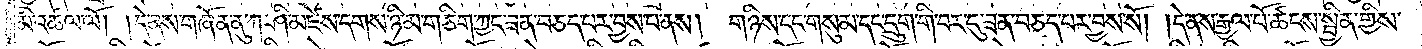མི་འཚལ་ལོ། །དེ་ནས་གཞོན་ནུ་ཀ་ཤི་མཛེས་དགས་ཉི་མ་གཅིག་ཀྱང་ཟན་བཅད་པར་བྱས་པ་ནས། གཉིས་དང་གསུམ་དང་དྲུག་གི་བར་དུ་ཟན་བཅད་པར་བྱས་སོ། །དེ་ནས་རྒྱལ་པོ་ཚངས་སྦྱིན་གྱིས་
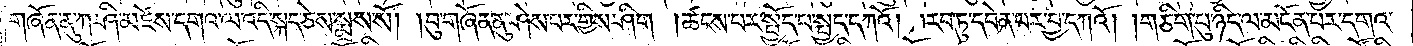གཞོན་ནུ་ཀ་ཤི་མཛེས་དགའ་ལ་འདི་སྐད་ཅེས་སྨྲས་སོ། །བུ་གཞོན་ནུ་ཤེས་པར་གྱིས་ཤིག །ཚངས་པར་སྤྱོད་པ་སྤྱད་དཀའོ། །རབ་ཏུ་དབེན་པར་བྱ་དཀའོ། །གཅིག་པུ་ཉིད་ལ་མངོན་པར་དགའ་
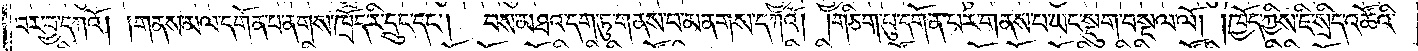བར་བྱ་དཀའོ། །གནས་མལ་དགོན་པ་ནགས་ཁྲོད་རི་དྲུང་དང༌། བས་མཐའ་དག་ཏུ་གནས་པ་མནགས་དཀའོ། །གཅིག་པུ་དགོན་པར་གནས་པ་ཡང་སྡུག་བསྔལ་ལོ། །ཁྱོད་ཀྱིས་ཇི་སྲིད་འཚོའི་
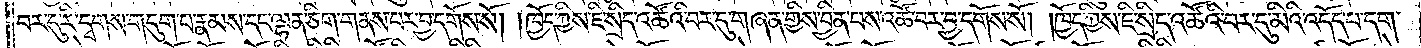བར་དུ་རི་དྭགས་གདུག་པ་རྣམས་དང་ལྷན་ཅིག་གནས་པར་བྱ་དགོས་སོ། །ཁྱོད་ཀྱིས་ཇི་སྲིད་འཚོའི་བར་དུ་གཞན་གྱིས་བྱིན་པས་འཚོ་བར་བྱ་དགོས་སོ། །ཁྱོད་ཀྱིས་ཇི་སྲིད་འཚོའི་བར་དུ་མིའི་འདོད་པ་དག་
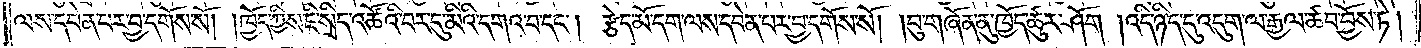ལས་དབེན་པར་བྱ་དགོས་སོ། །ཁྱོད་ཀྱིས་ཇི་སྲིད་འཚོའི་བར་དུ་མིའི་དགའ་བ་དང༌། རྩེད་མོ་དག་ལས་དབེན་པར་བྱ་དགོས་སོ། །བུ་གཞོན་ནུ་ཁྱོད་ཚུར་ཤོག །འདི་ཉིད་དུ་འདུག་ལ་རྒྱལ་ཚབ་བྱོས་ཏེ།
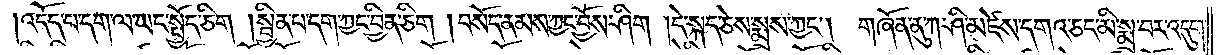འདོད་པ་དག་ལ་ཡང་སྤྱོད་ཅིག །སྦྱིན་པ་དག་ཀྱང་བྱིན་ཅིག །བསོད་ནམས་ཀྱང་བྱོས་ཤིག །དེ་སྐད་ཅེས་སྨྲས་ཀྱང༌། གཞོན་ནུ་ཀ་ཤི་མཛེས་དགའ་ཅང་མི་སྨྲ་བར་འདུག་
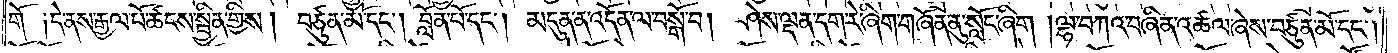གོ ༑དེ་ནས་རྒྱལ་པོ་ཚངས་སྦྱིན་གྱིས། བཙུན་མོ་དང༌། བློན་པོ་དང༌། མདུན་ན་འདོན་ལ་བསྒོ་བ། ཤེས་ལྡན་དག་རེ་ཞིག་གཞོན་ནུ་སློང་ཞིག །ལྷ་བཀའ་བཞིན་འཚལ་ཞེས་བཙུན་མོ་དང༌།
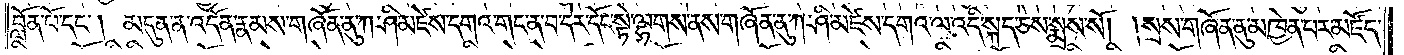བློན་པོ་དང༌། མདུན་ན་འདོན་རྣམས་གཞོན་ནུ་ཀ་ཤི་མཛེས་དགའ་གང་ན་བ་དེར་དོང་སྟེ་ལྷགས་ནས་གཞོན་ནུ་ཀ་ཤི་མཛེས་དགའ་ལ་འདི་སྐད་ཅེས་སྨྲས་སོ། །སྲས་གཞོན་ནུ་མཁྱེན་པར་མཛོད་
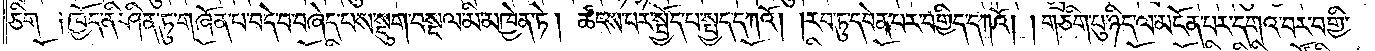ཅིག ༑ཁྱོད་ནི་ཤིན་ཏུ་གཞོན་པ་བདེ་བ་བཞེད་པས་སྡུག་བསྔལ་མི་མཁྱེན་ཏེ། ཚངས་པར་སྤྱོད་པ་སྤྱད་དཀའོ། །རབ་ཏུ་དབེན་པར་བགྱིད་དཀའོ། །གཅིག་པུ་ཉིད་ལ་མངོན་པར་དགའ་བར་བགྱི་
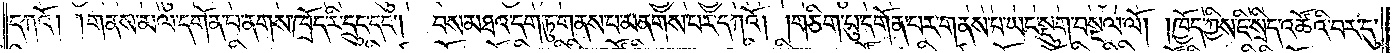དཀའོ། །གནས་མལ་དགོན་པ་ནགས་ཁྲོད་རི་དྲུང་དང༌། བས་མཐའ་དག་ཏུ་གནས་པ་མནགས་པར་དཀའོ། །གཅིག་པུ་དགོན་པར་གནས་པ་ཡང་སྡུག་བསྔལ་ལོ། །ཁྱོད་ཀྱིས་ཇི་སྲིད་འཚོའི་བར་དུ་
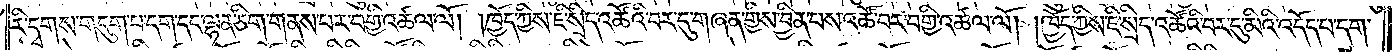རི་དྭགས་གདུག་པ་དག་དང་ལྷན་ཅིག་གནས་པར་བགྱི་འཚལ་ལོ། །ཁྱོད་ཀྱིས་ཇི་སྲིད་འཚོའི་བར་དུ་གཞན་གྱིས་བྱིན་པས་འཚོ་བར་བགྱི་འཚལ་ལོ། །ཁྱོད་ཀྱིས་ཇི་སྲིད་འཚོའི་བར་དུ་མིའི་འདོད་པ་དག་
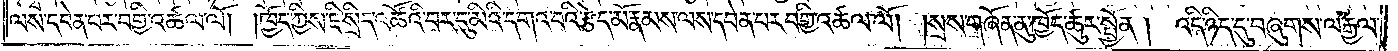ལས་དབེན་པར་བགྱི་འཚལ་ལོ།  །ཁྱོད་ཀྱིས་ཇི་སྲིད་འཚོའི་བར་དུ་མིའི་དགའ་བའི་རྩེད་མོ་རྣམས་ལས་དབེན་པར་བགྱི་འཚལ་ལོ། །སྲས་གཞོན་ནུ་ཁྱོད་ཚུར་སྤྱོན། འདི་ཉིད་དུ་བཞུགས་ལ་རྒྱལ་
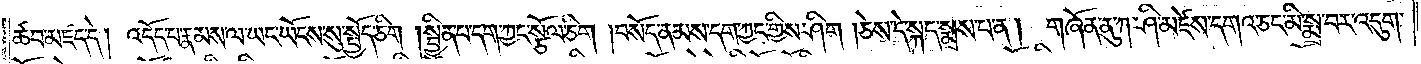ཚབ་མཛད་དེ། འདོད་པ་རྣམས་ལ་ཡང་ཡོངས་སུ་སྤྱོད་ཅིག །སྦྱིན་པ་དག་ཀྱང་སྩོལ་ཅིག །བསོད་ནམས་དག་ཀྱང་གྱིས་ཤིག །ཅེས་དེ་སྐད་སྨྲས་པ་ན། གཞོན་ནུ་ཀ་ཤི་མཛེས་དགའ་ཅང་མི་སྨྲ་བར་འདུག་
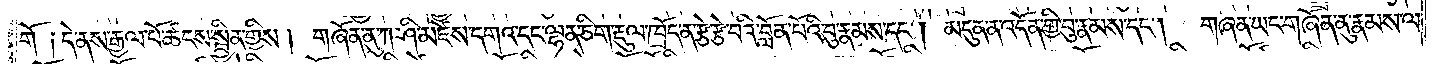གོ ༑དེ་ནས་རྒྱལ་པོ་ཚངས་སྦྱིན་གྱིས། གཞོན་ནུ་ཀ་ཤི་མཛེས་དགའ་དང་ལྷན་ཅིག་རྡུལ་ཁྲོད་ན་རྩེ་རྩེ་བའི་བློན་པོའི་བུ་རྣམས་དང༌། མདུན་ན་འདོན་གྱི་བུ་རྣམས་དང༌། གཞན་ཡང་གཞོན་ནུ་རྣམས་ལ་
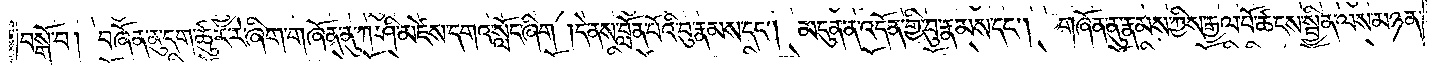བསྒོ་བ། བཞོན་ནུ་དག་ཚུར་རེ་ཞིག་གཞོན་ནུ་ཀ་ཤི་མཛེས་དགའ་སློང་ཞིག །དེ་ནས་བློན་པོའི་བུ་རྣམས་དང༌། མདུན་ན་འདོན་གྱི་བུ་རྣམས་དང༌། གཞོན་ནུ་རྣམས་ཀྱིས་རྒྱལ་པོ་ཚངས་སྦྱིན་ལས་མཉན་
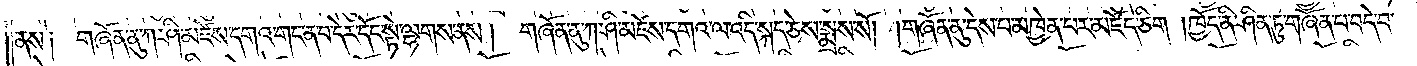ནས༑ གཞོན་ནུ་ཀ་ཤི་མཛེས་དགའ་གང་ན་བ་དེར་དོང་སྟེ་ལྷགས་ནས།  གཞོན་ནུ་ཀ་ཤི་མཛེས་དགའ་ལ་འདི་སྐད་ཅེས་སྨྲས་སོ། །གཞོན་ནུ་དེས་པ་མཁྱེན་པར་མཛོད་ཅིག །ཁྱོད་ནི་ཤིན་ཏུ་གཞོན་པ་བདེ་བ་
